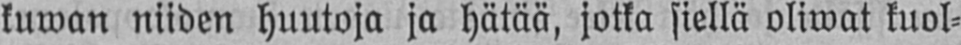kuwan niiden huutoja ja hätää, jotka siellä oliwat kuol-
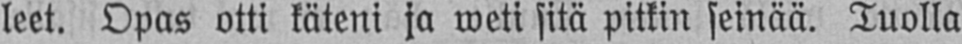leet. Opas otti käteni ja weti sitä pitkin seinää. Tuolla
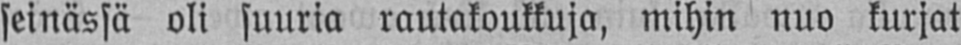seinässä oli suuria rautakoukkuja, mihin nuo kurjat
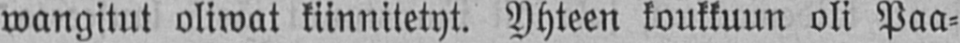wangitut oliwat kiinnitetyt. Yhteen koukkuun oli Paa-
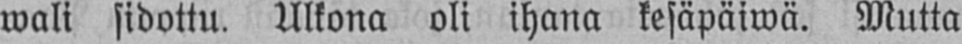wali sidottu. Ulkona oli ihana kesäpäiwä. Mutta
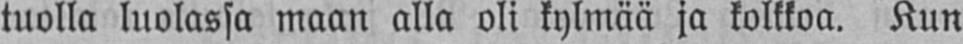tuolla luolassa maan alla oli kylmää ja kolkkoa. Kun
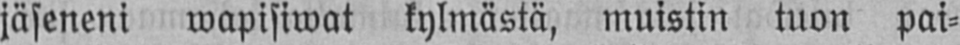jäseneni wapisiwat kylmästä, muistin tuon pai-
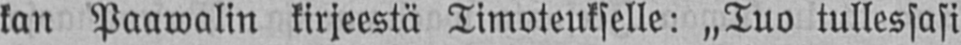kan Paawalin kirjeestä Timoteukselle: „Tuo tullessasi
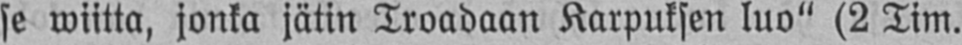se wiitta, jonka jätin Troadaan Karpuksen luo" (2 Tim.
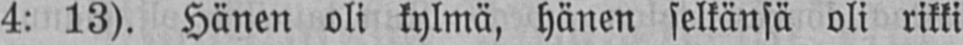4: 13). Hänen oli kylmä, hänen selkänsä oli rikki
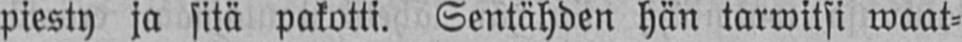piesty ja sitä pakotti. Sentähden hän tarwitsi waat-
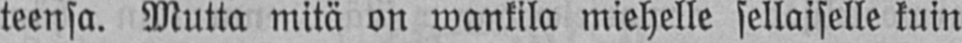teensa. Mutta mitä on wankila miehelle sellaiselle kuin
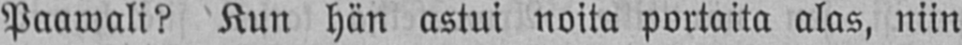Paawali? Kun hän astui noita portaita alas, niin
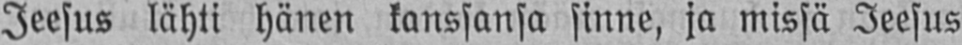Jeesus lähti hänen kanssansa sinne, ja missä Jeesus
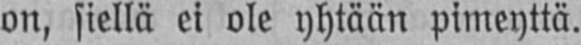on, siellä ei ole yhtään pimeyttä.
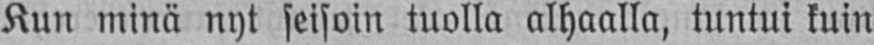Kun minä nyt seisoin tuolla alhaalla, tuntui kuin
